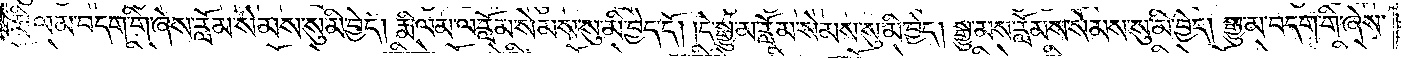རྨི་ལམ་བདག་གི་ཞེས་རློམ་སེམས་སུ་མི་བྱེད། རྨི་ལམ་ལ་རློམ་སེམས་སུ་མི་བྱེད་དོ། །དེ་སྒྱུ་མ་རློམ་སེམས་སུ་མི་བྱེད། སྒྱུ་མས་རློམ་སེམས་སུ་མི་བྱེད། སྒྱུ་མ་བདག་གི་ཞེས་
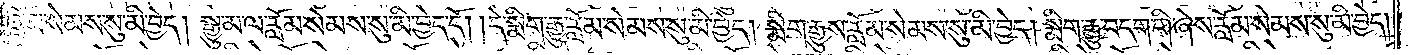རློམ་སེམས་སུ་མི་བྱེད། སྒྱུ་མ་ལ་རློམ་སེམས་སུ་མི་བྱེད་དོ། །དེ་སྨིག་རྒྱུ་རློམ་སེམས་སུ་མི་བྱེད། སྨིག་རྒྱུས་རློམ་སེམས་སུ་མི་བྱེད། སྨིག་རྒྱུ་བདག་གི་ཞེས་རློམ་སེམས་སུ་མི་བྱེད།
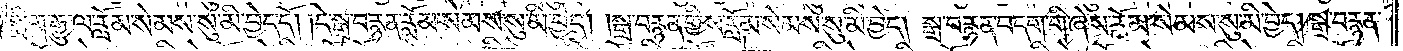སྨིག་རྒྱུ་ལ་རློམ་སེམས་སུ་མི་བྱེད་དོ། །དེ་སྒྲ་བརྙན་རློམ་སེམས་སུ་མི་བྱེད། །སྒྲ་བརྙན་གྱིས་རློམ་སེམས་སུ་མི་བྱེད། སྒྲ་བརྙན་བདག་གི་ཞེས་རློམ་སེམས་སུ་མི་བྱེད། སྒྲ་བརྙན་
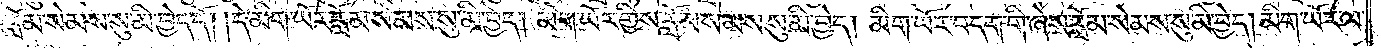ལ་རློམ་སེམས་སུ་མ་བྱེད་དོ། །དེ་མིག་ཡོར་རློམ་སེམས་སུ་མི་བྱེད། མིག་ཡོར་གྱིས་རློམ་སེམས་སུ་མི་བྱེད། མིག་ཡོར་བདག་གི་ཞེས་རློམ་སེམས་སུ་མི་བྱེད། མིག་ཡོར་ལ་
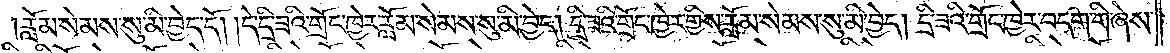རློམ་སེམས་སུ་མི་བྱེད་དོ། །དེ་དྲི་ཟའི་གྲོང་ཁྱེར་རློམ་སེམས་སུ་མི་བྱེད། དྲི་ཟའི་གྲོང་ཁྱེར་གྱིས་རློམ་སེམས་སུ་མི་བྱེད། དྲི་ཟའི་གྲོང་ཁྱེར་བདག་གི་ཞེས་
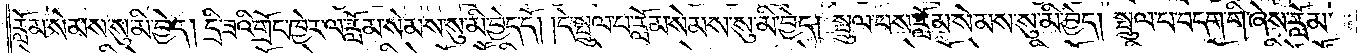རློམ་སེམས་སུ་མི་བྱེད། དྲི་ཟའི་གྲོང་ཁྱེར་ལ་རློམ་སེམས་སུ་མི་བྱེད་དོ། །དེ་སྤྲུལ་པ་རློམ་སེམས་སུ་མི་བྱེད། སྤྲུལ་པས་རློམ་སེམས་སུ་མི་བྱེད། སྤྲུལ་པ་བདག་གི་ཞེས་རློམ་
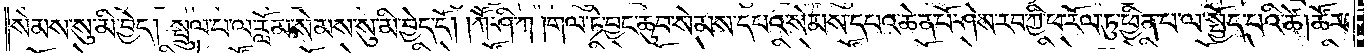སེམས་སུ་མི་བྱེད། སྤྲུལ་པ་ལ་རློམ་སེམས་སུ་མི་བྱེད་དོ། །ཀཽ་ཤི་ཀ། གལ་ཏེ་བྱང་ཆུབ་སེམས་དཔའ་སེམས་དཔའ་ཆེན་པོ་ཤེས་རབ་ཀྱི་ཕ་རོལ་ཏུ་ཕྱིན་པ་ལ་སྤྱོད་པའི་ཚེ། ཚོར་
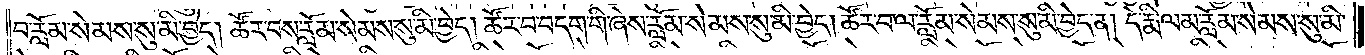བ་རློམ་སེམས་སུ་མི་བྱེད། ཚོར་བས་རློམ་སེམས་སུ་མི་བྱེད། ཚོར་བ་བདག་གི་ཞེས་རློམ་སེམས་སུ་མི་བྱེད། ཚོར་བ་ལ་རློམ་སེམས་སུ་མི་བྱེད་ན། དེ་རྨི་ལམ་རློམ་སེམས་སུ་མི་
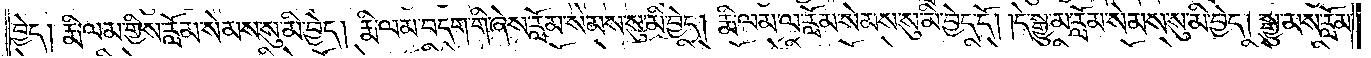བྱེད། རྨི་ལམ་གྱིས་རློམ་སེམས་སུ་མི་བྱེད། རྨི་ལམ་བདག་གི་ཞེས་རློམ་སེམས་སུ་མི་བྱེད། རྨི་ལམ་ལ་རློམ་སེམས་སུ་མི་བྱེད་དོ། །དེ་སྒྱུ་མ་རློམ་སེམས་སུ་མི་བྱེད། སྒྱུ་མས་རློམ་
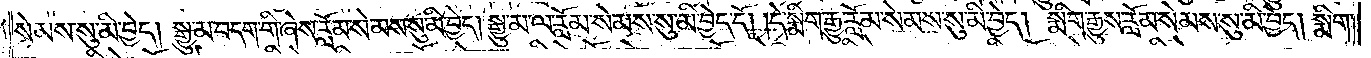སེམས་སུ་མི་བྱེད། སྒྱུ་མ་བདག་གི་ཞེས་རློམ་སེམས་སུ་མི་བྱེད། སྒྱུ་མ་ལ་རློམ་སེམས་སུ་མི་བྱེད་དོ། །དེ་སྨིག་རྒྱུ་རློམ་སེམས་སུ་མི་བྱེད། སྨིག་རྒྱུས་རློམ་སེམས་སུ་མི་བྱེད། སྨིག་
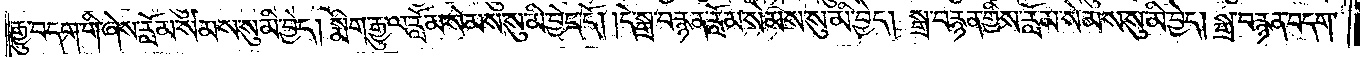རྒྱུ་བདག་གི་ཞེས་རློམ་སེམས་སུ་མི་བྱེད། སྨིག་རྒྱུ་ལ་རློམ་སེམས་སུ་མི་བྱེད་དོ། །དེ་སྒྲ་བརྙན་རློམ་སེམས་སུ་མི་བྱེད། སྒྲ་བརྙན་གྱིས་རློམ་སེམས་སུ་མི་བྱེད། སྒྲ་བརྙན་བདག་
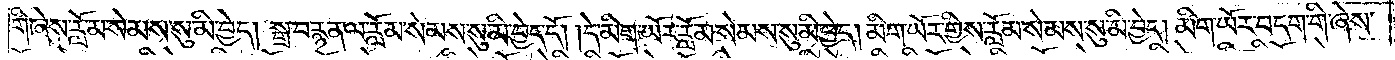གི་ཞེས་རློམ་སེམས་སུ་མི་བྱེད། སྒྲ་བརྙན་ལ་རློམ་སེམས་སུ་མི་བྱེད་དོ། །དེ་མིག་ཡོར་རློམ་སེམས་སུ་མི་བྱེད། མིག་ཡོར་གྱིས་རློམ་སེམས་སུ་མི་བྱེད། མིག་ཡོར་བདག་གི་ཞེས་
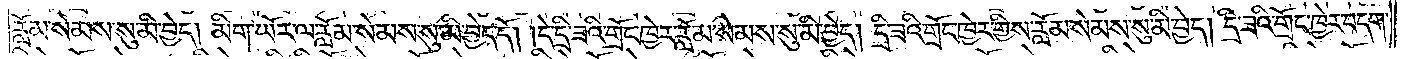རློམ་སེམས་སུ་མི་བྱེད། མིག་ཡོར་ལ་རློམ་སེམས་སུ་མི་བྱེད་དོ། །དེ་དྲི་ཟའི་གྲོང་ཁྱེར་རློམ་སེམས་སུ་མི་བྱེད། དྲི་ཟའི་གྲོང་ཁྱེར་གྱིས་རློམ་སེམས་སུ་མི་བྱེད། དྲི་ཟའི་གྲོང་ཁྱེར་བདག་
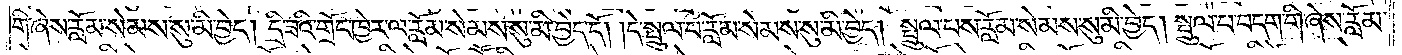གི་ཞེས་རློམ་སེམས་སུ་མི་བྱེད། དྲི་ཟའི་གྲོང་ཁྱེར་ལ་རློམ་སེམས་སུ་མི་བྱེད་དོ། །དེ་སྤྲུལ་པ་རློམ་སེམས་སུ་མི་བྱེད། སྤྲུལ་པས་རློམ་སེམས་སུ་མི་བྱེད། སྤྲུལ་པ་བདག་གི་ཞེས་རློམ་
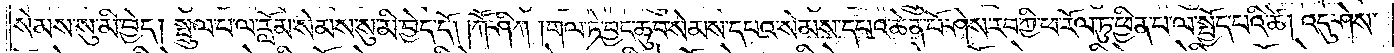སེམས་སུ་མི་བྱེད། སྤྲུལ་པ་ལ་རློམ་སེམས་སུ་མི་བྱེད་དོ། །ཀཽ་ཤི་ཀ། གལ་ཏེ་བྱང་ཆུབ་སེམས་དཔའ་སེམས་དཔའ་ཆེན་པོ་ཤེས་རབ་ཀྱི་ཕ་རོལ་ཏུ་ཕྱིན་པ་ལ་སྤྱོད་པའི་ཚེ། འདུ་ཤེས་
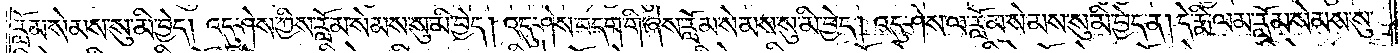རློམ་སེམས་སུ་མི་བྱེད། འདུ་ཤེས་ཀྱིས་རློམ་སེམས་སུ་མི་བྱེད། འདུ་ཤེས་བདག་གི་ཞེས་རློམ་སེམས་སུ་མི་བྱེད། འདུ་ཤེས་ལ་རློམ་སེམས་སུ་མི་བྱེད་ན། དེ་རྨི་ལམ་རློམ་སེམས་སུ་
